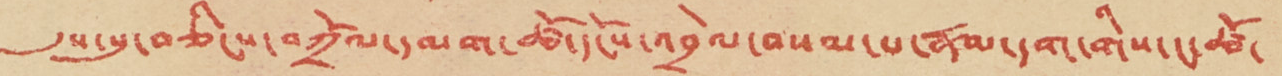དུས་སུ་བཅིངས་བཀྲོལ་དམག་ཚོ་དངོས་འབྲེལ་བསམ་པ་རྣམ་དག་གིས་ང་ཚོ་
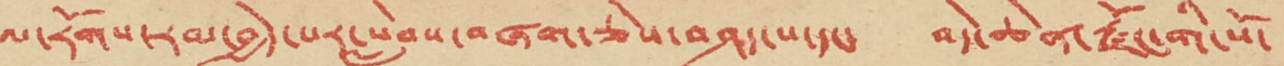ལ་རོགས་རམ་བྱེད་པར་སླེབས་བཞག་ཅེས་བཤད་པ་དང་ བདེ་ཆེན་རྫོང་གི་སོ་
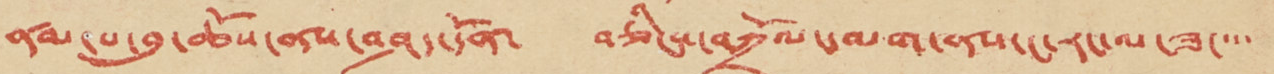ནམ་པ་བུ་ཆོས་ནས་བཤད་དོན་ བཅིངས་བཀྲོལ་དམག་ནས་ང་རང་ལ་ཟ་་་་
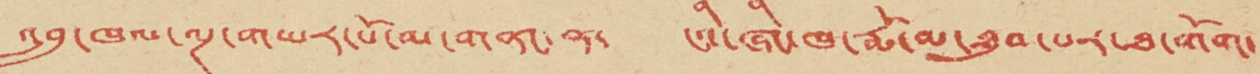འབྲུ་ཁལ་ལྔ་གཡར་པོ་མ་གནང་ན་ ངའི་ཞིང་ཁ་རྨོ་མ་ཐུབ་པར་ཐ་གོག་
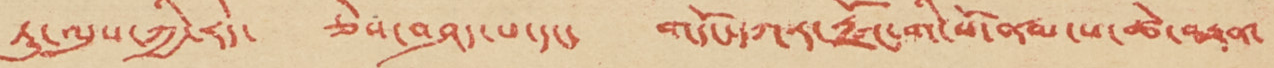ཏུ་ལུས་ཀྱི་རེད་ ཅེས་བཤད་པ་དང་ གདོང་དཀར་རྫོང་གི་སོ་ནམ་པ་ཚེ་བརྟན་
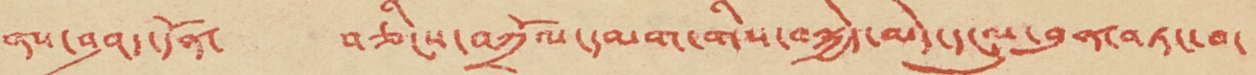ནས་བཤད་དོན་ བཅིངས་བཀྲོལ་དམག་གིས་བསྐྱེད་མེད་དངུལ་བུན་བཏང་བ་
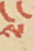ས
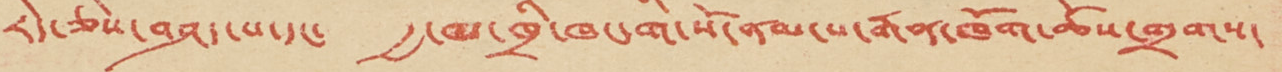རེད་ཅེས་བཤད་པ་དང་ རྒྱ་མ་ཁྲི་ཁང་གི་སོ་ནམ་པ་རྒན་ཁོག་ཆོས་གྲགས་
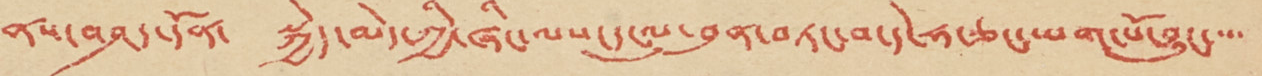ནས་བཤད་དོན་ སྐྱེད་མེད་ཀྱི་ཞིང་ལས་དངུལ་བུན་བཏང་བ་དེ་ཧ་ཅང་ཡག་པོ་བྱུང་་་་
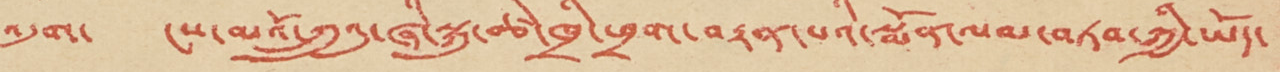འདུག་ ངས་མའོ་ཀྲུའུ་ཞི་སྐུ་ཚེ་ཁྲི་ཕྲག་བརྟན་པའི་སྨོན་ལམ་བཏབ་ཀྱི་ཡོད་
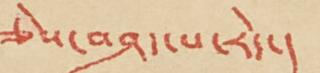ཅེས་བཤད་པ་རེད་།
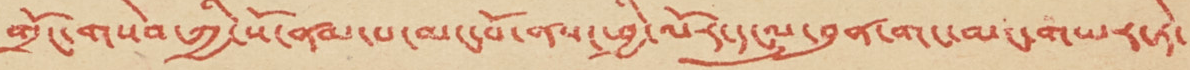གྲོང་གསེབ་ཀྱི་སོ་ནམ་པ་མང་པོ་ནས་ཕྱི་ལོར་དངུལ་བུན་གང་མང་གཡར་ཏེ་
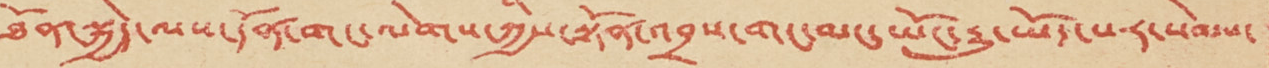ཐོན་སྐྱེད་ལས་དོན་གང་ལེགས་ཀྱིས་སྟོན་འབྲས་གང་མང་ཡོང་རྒྱུ་ཡོད་པར་སེམས་
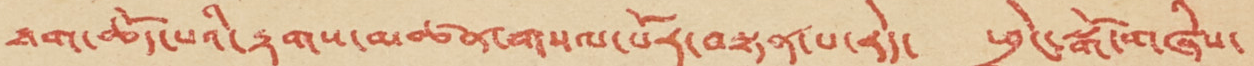ཐག་ཆོད་པའི་རྟགས་མཚན་གསལ་པོར་བསྟན་པ་རེད་ ཕྲེང་སྒོ་གཞིས་
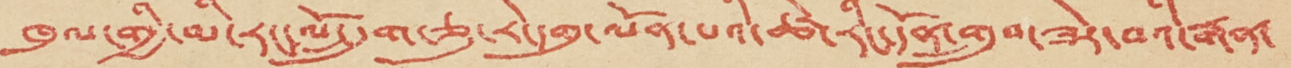ཁུལ་གྱི་མི་རང་ལོ་དྲུག་ཅུ་རེ་དགུ་ལོན་པའི་ཚེ་རིང་དོན་གྲུབ་ཟེར་བའི་རྒན་
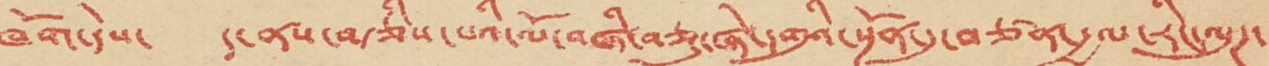ཁོག་དེས་ ད་ནས་བརྩིས་པའི་ལོ་བཞི་བཅུ་ཞེ་དགུའི་སྔོན་དུ་བཙན་རྒྱལ་རིང་ལུཊ་
